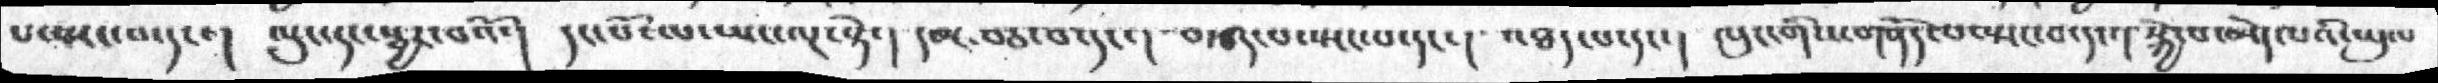པ་སྤང་བ་དང་།  ལུང་དང་སྦྱར་བའོ་།  དང་པོ་ལ་ཡང་ལྔ་སྟེ་།  དམ་བཅ་བ་དང་།  བརྩད་པ་སྤང་པ་དང་། འཐད་པ་དང་།  ལུང་གིས་གནོད་པ་སྤང་བ་དང་། སྐྱེ་བ་མེད་པའི་ཡུལ
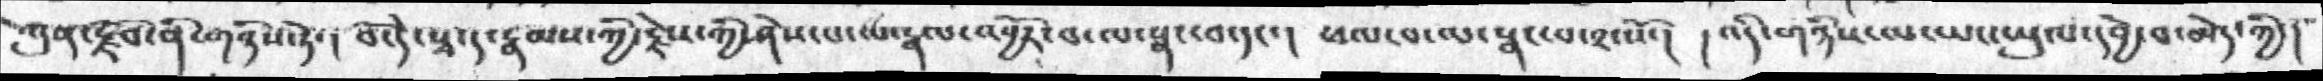ཀུན་རྫོབ་ནི་གཉིས་ཏེ་། བོ་དེ་སྭ་ད་རྣམས་ཀྱི་རྗེས་ཀྱི་ཤེས་པ་ལ་རྣལ་འབྱོར་བ་ལ་སྣང་བ་དང་།  ཕལ་བ་ལ་སྣང་བ་༢་སོ་། །འདི་གཉིས་ལ་ཡང་ཡུལ་དབྱེ་བ་མེད་ཀྱི་།
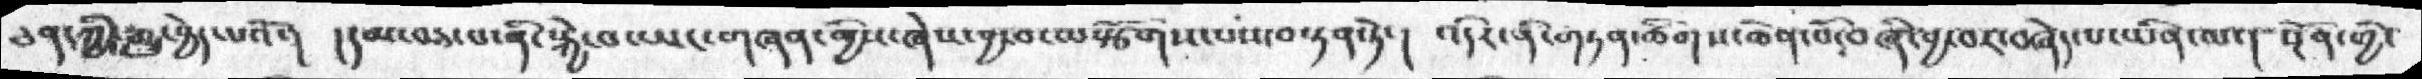ཅན་གྱི་རྒྱུ་བྱེད་པའོ་།  །དམ་བཅ་པ་ནི་སྐྱེ་བ་ཡང་གཞན་གིས་ཞེས་བྱ་བ་ལསྩོགས་པས་བསྟན་ཏེ་།  འདིར་ནི་གཏན་ཚིགས་ཆེན་པོ་བཞི་བྱ་བར་བཞེད་པ་ཡིན་ལ་། སྔོན་གྱི་
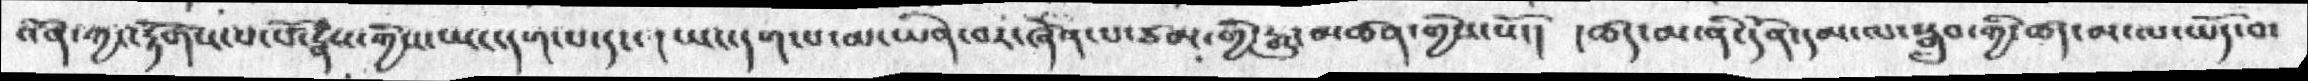འོན་ཀྱང་རྟོགས་པ་པོ་རྣཾས་ཀྱིས་ཡང་དག་པ་དང་། ཡང་དག་པ་མ་ཡིན་བར་ཞེན་པ་ཙམ་གྱི་རྒྱུ་མཚན་གྱིས་སོ་།  །ཚད་མ་ནི་དོན་དམ་ལ་སྒྲུབ་ཀྱི་ཚད་མ་ལ་ཡོད་བ་
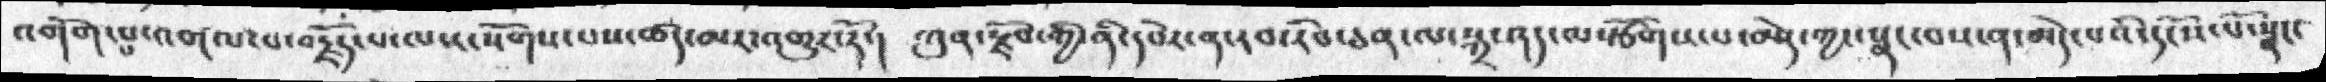འགོགས་པ་འགལ་པ་བརྗོད་པ་ལས་སོགས་པས་ཚད་མར་འགྱར་རོ་།  ཀུན་རྫོབ་གྱི་ནི་དཔེར་ན་རབ་རིབ་ཅན་ལ་སྐྲ་ཤད་ལསྩོགས་པ་མེད་ཀྱང་སྣང་བས་ན་མེད་པའི་དངོས་པོ་སྣང་
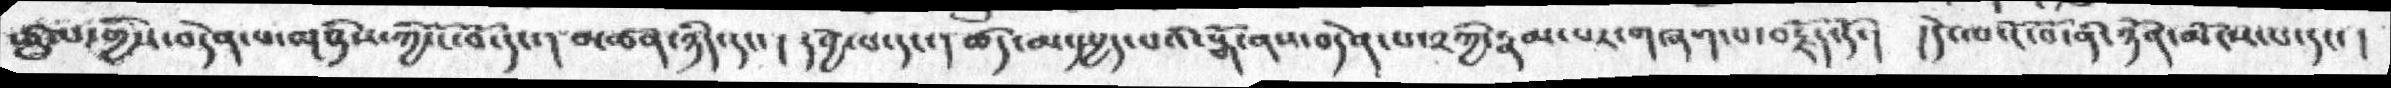ཚུལ་གྱིས་བདེན་པ་གཉིས་ཀྱི་ངོ་བོ་དང་། མཚན་ཉིད་དང་།  དབྱེ་བ་དང་། ཚད་མ་དཔྱད་པའི་སྒོ་ནས་བདེན་པར་༢ཀྱི་རྣམ་པར་གཞག་པ་བརྗོད་དོ་།  །དེ་ལ་ངོ་བོ་ནི་ཉོན་མོངས་པ་དང་།
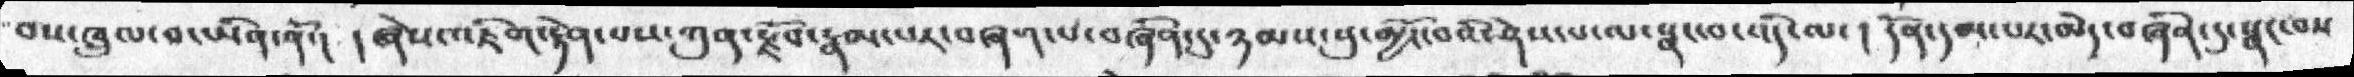བས་ཁྲུལ་བ་ཡིན་ནོ་།  ། ཞེས་འཇིག་རྟེན་པས་ཀུན་རྗོབ་རྣམ་པར་བཞག་པ་བཞིན་དུ་ཉམས་སུ་མྱོང་བའི་ཤེས་པ་ལ་སྣང་བ་འདི་ལ་། དོན་དམ་པར་མེད་བཞིན་དུ་སྣང་བས
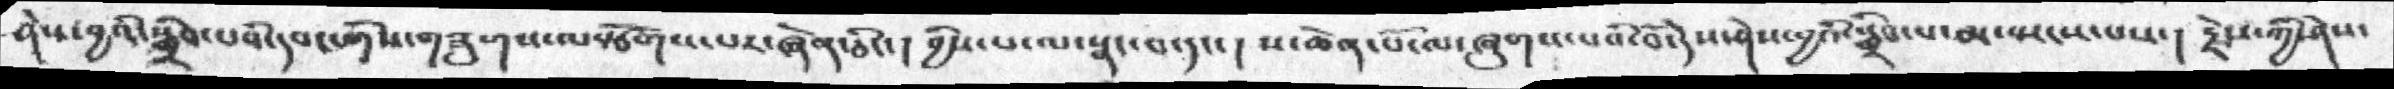ཤེས་བྱའི་སྒྲིབ་པའི་དབང་གིས་གཟུགས་ལསྩོགས་པར་ཞེན་ཅིང་། བྱིས་པ་ལ་སྣང་བ་དང་།  ས་ཆེན་པོ་ལ་ཞུགས་པའི་བོ་དེས་ཤེས་བྱའི་སྒྲིབ་པ་མ་སྤངས་པས་།  རྗེས་ཀྱི་ཤེས་
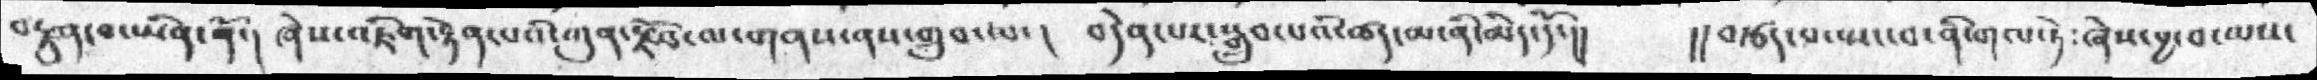བརྫུན་བ་ཡིན་ནོ་།  ཞེས་འཇིག་རྟེན་པའི་ཀུན་རྫོབ་ལ་གནས་ནས་གྲུབ་པ་། བདེན་པར་སྒྲུབ་པའི་ཚད་མ་ནི་མེད་དོ་།།  །།བརྩད་པ་སྤང་བ་ནི་གལ་ཏེ༴ཞེས་བྱ་བ་ལས་
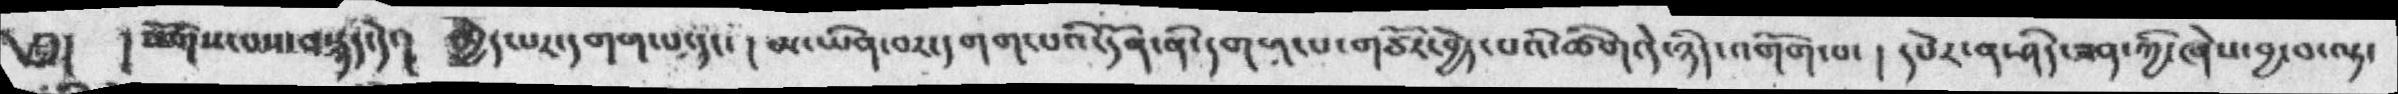༅།    །སོགས་པས་བསྙད་དེ་།  མྱེད་པར་དགག་པ་དང་ །མ་ཡིན་བར་དགག་པའི་དོན་ནི་དགག་པ་གཙོར་བྱེད་པའི་ཚིག་དེ་ཉིད་འགོག་པ་ ། དཔེར་ན་ཤིད་ཟན་ཀྱི་ཞེས་བྱ་ལྟ་
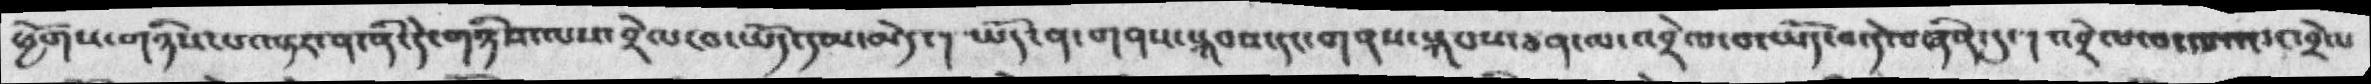ཕྱོགས་གཉིས་པ་བསྟར་ན་ནི་དེ་གཉིས་ལས་བྲེལ་བ་ཡོད་དམ་མེད་།  ཡོད་ན་གནས་སྐབས་དང་གནས་སྐབས་ཅན་ལ་འབྲེལ་བ་ཡོད་བ་དེ་བཞིན་དུ་།  འབྲེལ་བ་ལའང་འབྲེལ
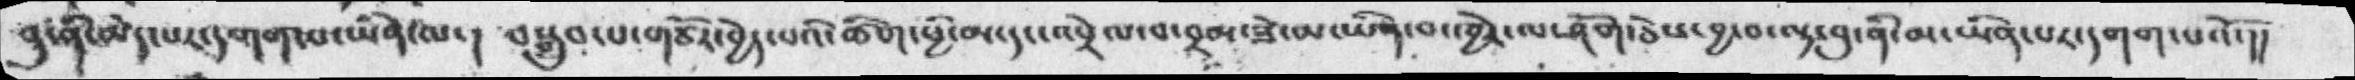བུ་ནི་མེད་པར་དགག་པ་ཡིན་ལ་། བསྒྲུབ་པ་གཙོར་བྱེད་པའི་ཚིག་ཕྱི་མ་དང་འབྲེལ་བ་བྲམ་ཟེ་མ་ཡིན་བ་ཁྱེར་ལ་ཤོག་ཅེས་བྱ་བ་ལྟ་བུ་ནི་མ་ཡིན་པར་དགག་པའོ་།།
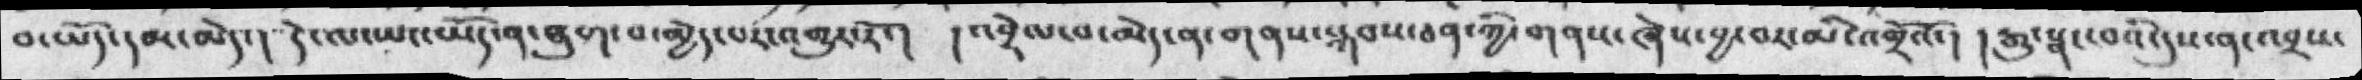བ་ཡོད་དམ་མེད་།  དེ་ལ་ཡང་ཡོད་ན་ཐུག་པ་མེད་པར་འགྱུར་རོ་།  ། འབྲེལ་བ་མེད་ན་གནས་སྐབས་ཅན་ཀྱི་གནས་ཞེས་བྱ་བར་མི་འགྲོའོ་།  ། རྒྱུ་སྣང་བའི་དུས་ན་འབྲས་
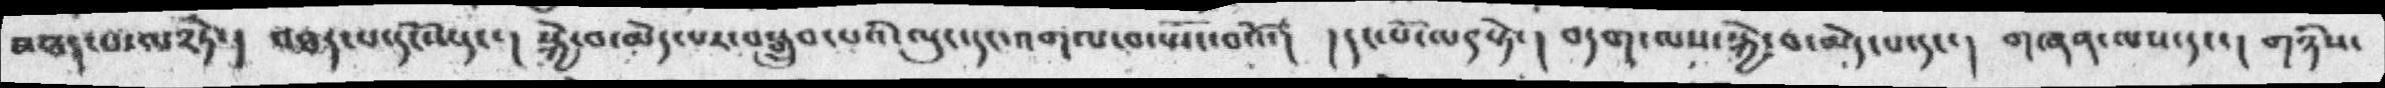འཐར་པ་ལ༢ཏེ་།  འཐར་པ་དངོས་དང་།  སྐྱེ་བ་མེད་པར་བསྒྲུབ་པའི་ལུང་དང་འགལ་བ་སྤོང་བའོ་།  ། དང་པོ་ལ༩སྟེ་།  བདག་ལས་སྐྱེ་བ་མེད་པ་དང་།  གཞན་ལས་དང་།  གཉིས་
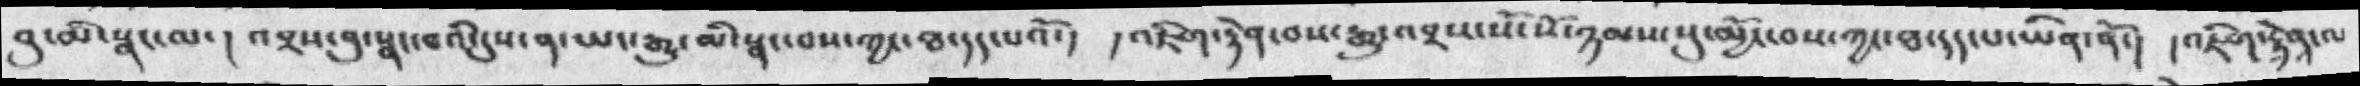བུ་མི་སྣང་ལ་། འབྲས་བུ་སྣང་བའི་དུས་ན་ཡང་རྒྱུ་མི་སྣང་བས་ཀྱང་ཐ་དད་པའོ་།  ། འཇིག་རྟེན་བས་རྒྱུ་འབྲས་སོ་སོ་ཉམས་སུ་མྱོང་བས་ཀྱང་ཐ་དད་པ་ཡིན་ནོ་།  །འཇིག་རྟེན་ལ
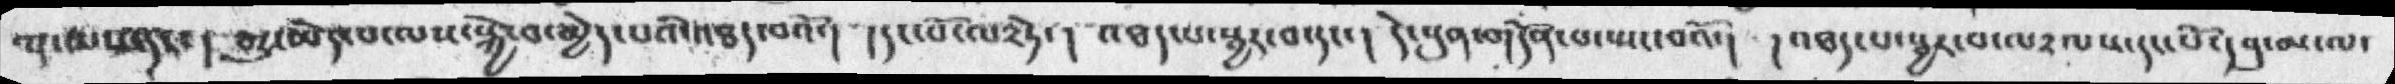ལྔ་མས་ནང་། རྒྱུ་མེད་པ་ལས་སྐྱེ་བ་མྱེད་པའི་འཐད་བའོ་།  །དང་པོ་ལ༢ཏེ་།  འཐད་པ་སྦྱར་བ་དང་། དེ་སུན་གདོན་པ་སྤང་བའོ་།  །འཐད་པ་སྦྱར་བ་ལ༢ལས་དང་པོ་དབུ་མ་ལ་
